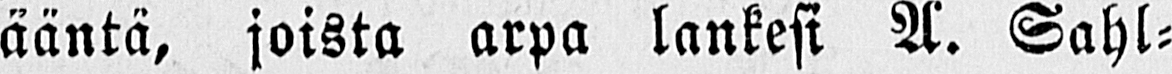ääntä, joista arpa lankesi A. Sahl-
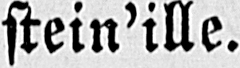stein'ille.
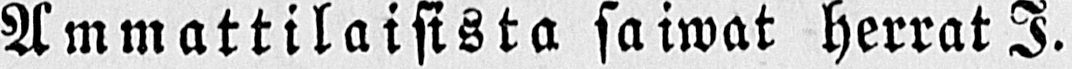Ammattilaisista saiwat herrat I.
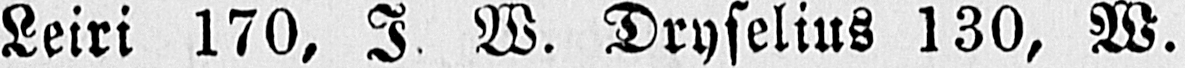Leiri 170, I W. Dryselius 130, W.
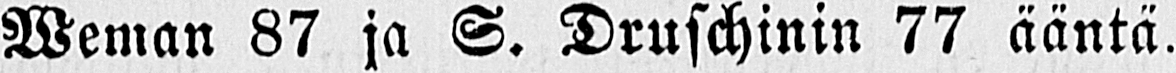Weman 87 ja S. Druschinin 77 ääntä.
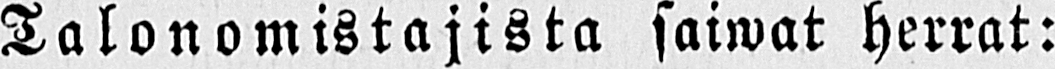Talonomistajista saiwat herrat:
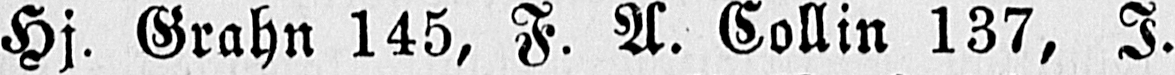Hj. Grahn 145, F. A. Collin 137, I.
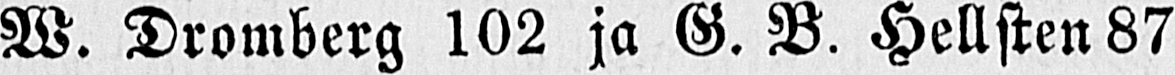W. Dromberg 102 ja G. B. Hellsten 87
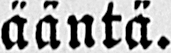ääntä.
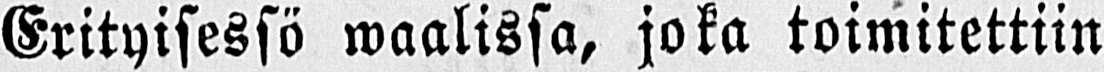Erityisessä waalissa, joka toimitettiin
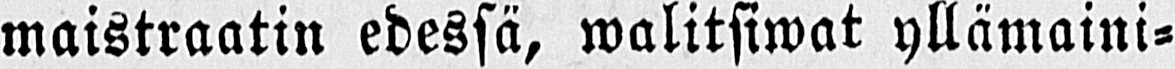maistraatin edessä, walitsiwat yllämaini-
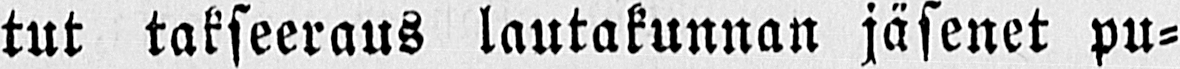tut takseeraus lautakunnan jäsenet pu-
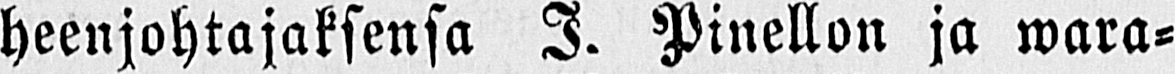heenjohtajaksensa I. Pinellon ja wara-
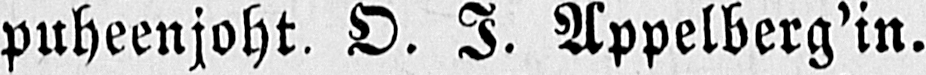puheenjoht. O. I. Appelberg'in.
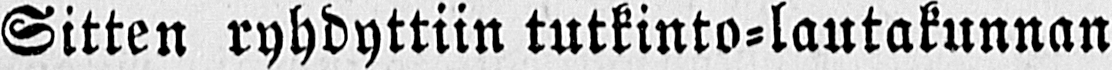Sitten ryhdyttiin tutkinto-lautakunnan
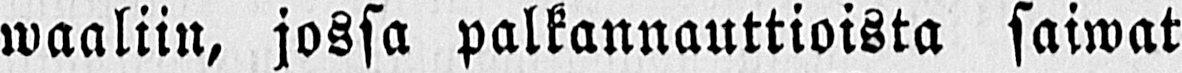waaliin, jossa palkannauttioista saiwat
